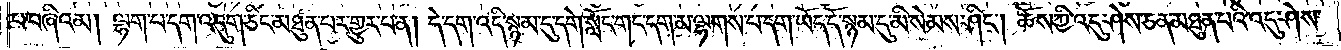པ་བཞིའམ། ལྷག་པ་དག་འདུག་ཅིང་མཐུན་པར་གྱུར་པ་ན། དེ་དག་འདི་སྙམ་དུ་དགེ་སློང་གང་དག་མ་ལྷགས་པ་དག་ཡོད་དོ་སྙམ་དུ་མི་སེམས་ཤིང༌། ཆོས་ཀྱི་འདུ་ཤེས་ཅན་མཐུན་པའི་འདུ་ཤེས་
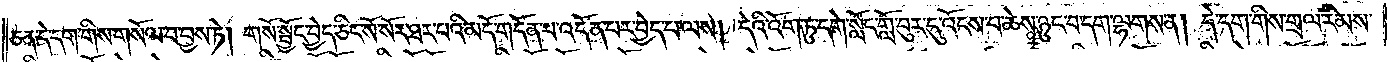ཅན་དེ་དག་གིས་གསོལ་བ་བྱས་ཏེ། གསོ་སྦྱོང་བྱེད་ཅིང་སོ་སོར་ཐར་པའི་མདོ་གདོན་པ་འདོན་པར་བྱེད་པ་ལས། དེའི་འོག་ཏུ་དགེ་སློང་གློ་བུར་དུ་འོངས་པ་ཆེས་ཉུང་བ་དག་ལྷགས་ན། དེ་དག་གིས་གྲལ་རིམས་
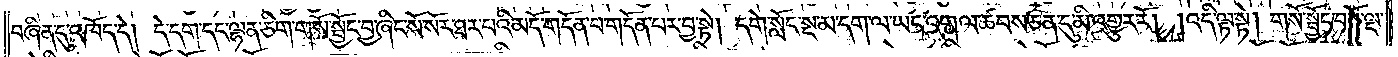བཞིན་དུ་འཁོད་དེ། དེ་དག་དང་ལྷན་ཅིག་གསོ་སྦྱོང་བྱ་ཞིང་སོ་སོར་ཐར་པའི་མདོ་གདོན་པ་གདོན་པར་བྱ་སྟེ། དགེ་སློང་སྔ་མ་དག་ལ་ཡང་འགལ་ཚབས་ཅན་དུ་མི་འགྱུར་རོ། །འདི་ལྟ་སྟེ། གསོ་སྦྱོང་བཅོ་ལྔ་
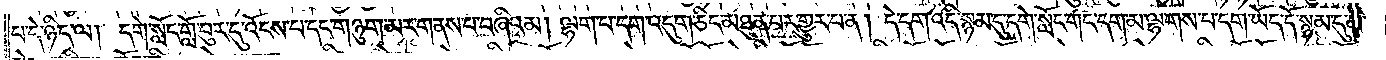པ་དེ་ཉིད་ལ། དགེ་སློང་གློ་བུར་དུ་འོངས་པ་དང་གཉུག་མར་གནས་པ་བཞིའམ། ལྷག་པ་དག་འདུག་ཅིང་མཐུན་པར་གྱུར་པ་ན། དེ་དག་འདི་སྙམ་དུ་དགེ་སློང་གང་དག་མ་ལྷགས་པ་དག་ཡོད་དོ་སྙམ་དུ་མི་
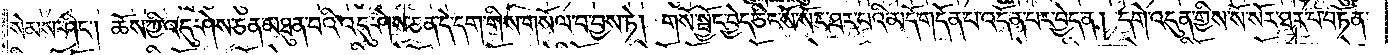སེམས་ཤིང༌། ཆོས་ཀྱི་འདུ་ཤེས་ཅན་མཐུན་པའི་འདུ་ཤེས་ཅན་དེ་དག་གིས་གསོལ་བ་བྱས་ཏེ། གསོ་སྦྱོང་བྱེད་ཅིང་སོ་སོར་ཐར་པའི་མདོ་གདོན་པ་འདོན་པར་བྱེད་ན། དགེ་འདུན་གྱིས་སོ་སོར་ཐར་པ་བཏོན་
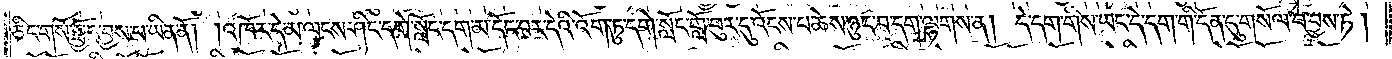ཅིང་གསོ་སྦྱོང་བྱས་པ་ཡིན་ནོ། །འཁོར་དེ་མ་ལངས་ཤིང་དགེ་སློང་དག་མ་དོང་བར་དེའི་འོག་ཏུ་དགེ་སློང་གློ་བུར་དུ་འོངས་པ་ཆེས་ཉུང་བ་དག་ལྷགས་ན། དེ་དག་གིས་ཡང་དེ་དག་གི་དོན་དུ་གསོལ་བ་བྱས་ཏེ།
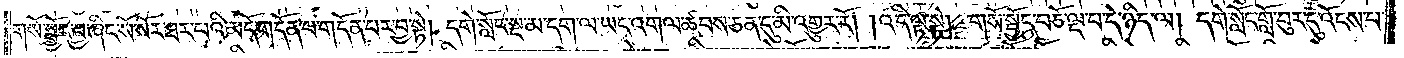གསོ་སྦྱོང་བྱ་ཞིང་སོ་སོར་ཐར་པའི་མདོ་གདོན་པ་གདོན་པར་བྱ་སྟེ། དགེ་སློང་སྔ་མ་དག་ལ་ཡང་འགལ་ཚབས་ཅན་དུ་མི་འགྱུར་རོ། །འདི་ལྟ་སྟེ། གསོ་སྦྱོང་བཅོ་ལྔ་པ་དེ་ཉིད་ལ། དགེ་སློང་གློ་བུར་དུ་འོངས་པ་
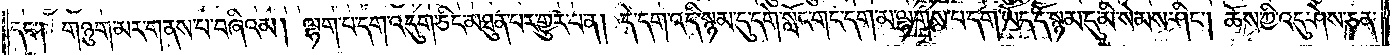དང༌། གཉུག་མར་གནས་པ་བཞིའམ། ལྷག་པ་དག་འདུག་ཅིང་མཐུན་པར་གྱུར་པ་ན། དེ་དག་འདི་སྙམ་དུ་དགེ་སློང་གང་དག་མ་ལྷགས་པ་དག་ཡོད་དོ་སྙམ་དུ་མི་སེམས་ཤིང༌། ཆོས་ཀྱི་འདུ་ཤེས་ཅན་
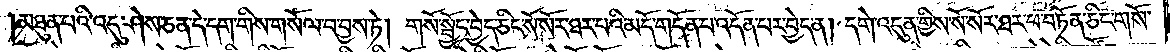མཐུན་པའི་འདུ་ཤེས་ཅན་དེ་དག་གིས་གསོལ་བ་བྱས་ཏེ། གསོ་སྦྱོང་བྱེད་ཅིང་སོ་སོར་ཐར་པའི་མདོ་གདོན་པ་འདོན་པར་བྱེད་ན། དགེ་འདུན་གྱིས་སོ་སོར་ཐར་པ་བཏོན་ཅིང་གསོ་
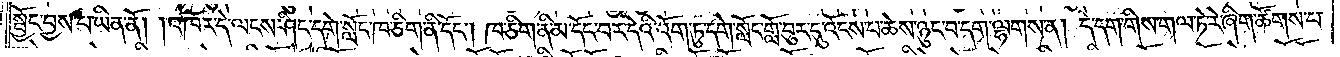སྦྱོང་བྱས་པ་ཡིན་ནོ། །འཁོར་དེ་ལངས་ཤིང་དགེ་སློང་ཁ་ཅིག་ནི་དོང༌། ཁ་ཅིག་ནི་མ་དོང་བར་དེའི་འོག་ཏུ་དགེ་སློང་གློ་བུར་དུ་འོངས་པ་ཆེས་ཉུང་བ་དག་ལྷགས་ན། དེ་དག་གིས་གལ་ཏེ་རེ་ཞིག་ཚོགས་པ་
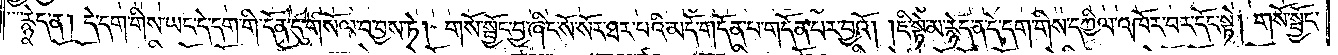རྙེད་ན། དེ་དག་གིས་ཡང་དེ་དག་གི་དོན་དུ་གསོལ་བ་བྱས་ཏེ། གསོ་སྦྱོང་བྱ་ཞིང་སོ་སོར་ཐར་པའི་མདོ་གདོན་པ་གདོན་པར་བྱའོ། །ཇི་སྟེ་མ་རྙེད་ན་དེ་དག་གིས་དཀྱིལ་འཁོར་བར་དོང་སྟེ། གསོ་སྦྱོང་
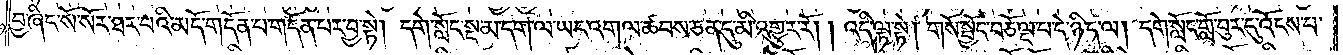བྱ་ཞིང་སོ་སོར་ཐར་པའི་མདོ་གདོན་པ་གདོན་པར་བྱ་སྟེ། དགེ་སློང་སྔ་མ་དག་ལ་ཡང་འགལ་ཚབས་ཅན་དུ་མི་འགྱུར་རོ། །འདི་ལྟ་སྟེ། གསོ་སྦྱོང་བཅོ་ལྔ་པ་དེ་ཉིད་ལ། དགེ་སློང་གློ་བུར་དུ་འོངས་པ་
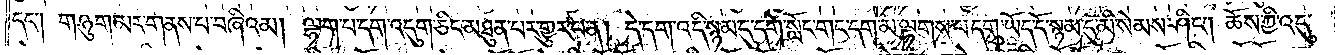དང༌། གཉུག་མར་གནས་པ་བཞིའམ། ལྷག་པ་དག་འདུག་ཅིང་མཐུན་པར་གྱུར་པ་ན། དེ་དག་འདི་སྙམ་དུ་དགེ་སློང་གང་དག་མ་ལྷགས་པ་དག་ཡོད་དོ་སྙམ་དུ་མི་སེམས་ཤིང༌། ཆོས་ཀྱི་འདུ་
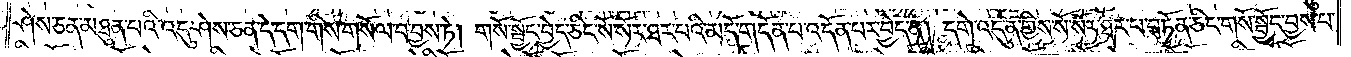ཤེས་ཅན་མཐུན་པའི་འདུ་ཤེས་ཅན་དེ་དག་གིས་གསོལ་བ་བྱས་ཏེ། གསོ་སྦྱོང་བྱེད་ཅིང་སོ་སོར་ཐར་པའི་མདོ་གདོན་པ་འདོན་པར་བྱེད་ན། དགེ་འདུན་གྱིས་སོ་སོར་ཐར་པ་བཏོན་ཅིང་གསོ་སྦྱོང་བྱས་པ་
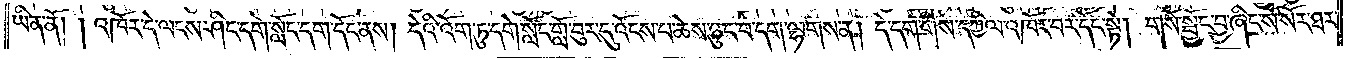ཡིན་ནོ། །འཁོར་དེ་ལངས་ཤིང་དགེ་སློང་དག་དོང་ནས། དེའི་འོག་ཏུ་དགེ་སློང་གློ་བུར་དུ་འོངས་པ་ཆེས་ཉུང་བ་དག་ལྷགས་ན། དེ་དག་གིས་དཀྱིལ་འཁོར་བར་དོང་སྟེ། གསོ་སྦྱོང་བྱ་ཞིང་སོ་སོར་ཐར་
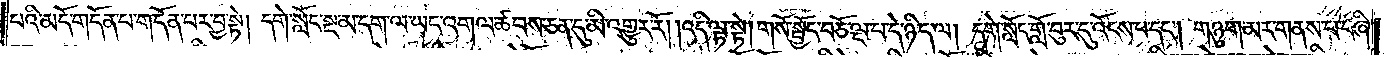པའི་མདོ་གདོན་པ་གདོན་པར་བྱ་སྟེ། དགེ་སློང་སྔ་མ་དག་ལ་ཡང་འགལ་ཚབས་ཅན་དུ་མི་འགྱུར་རོ། །འདི་ལྟ་སྟེ། གསོ་སྦྱོང་བཅོ་ལྔ་པ་དེ་ཉིད་ལ། དགེ་སློང་གློ་བུར་དུ་འོངས་པ་དང༌། གཉུག་མར་གནས་པ་བཞི་
